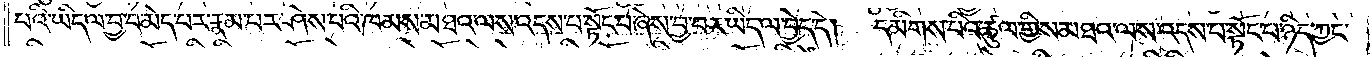པའི་ཡིད་ལ་བྱ་བ་མེད་པར་རྣམ་པར་ཤེས་པའི་ཁམས་མཐའ་ལས་འདས་པ་སྟོང་པ་ཞེས་བྱ་བར་ཡིད་ལ་བྱེད་དེ། དམིགས་པའི་ཚུལ་གྱིས་མཐའ་ལས་འདས་པ་སྟོང་པ་ཉིད་ཀྱང་
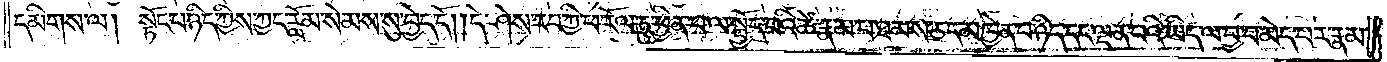དམིགས་ལ། སྟོང་པ་ཉིད་ཀྱིས་ཀྱང་རློམ་སེམས་སུ་བྱེད་དོ། །དེ་ཤེས་རབ་ཀྱི་ཕ་རོལ་ཏུ་ཕྱིན་པ་ལ་སྤྱོད་པའི་ཚེ་རྣམ་པ་ཐམས་ཅད་མཁྱེན་པ་ཉིད་དང་ལྡན་པའི་ཡིད་ལ་བྱ་བ་མེད་པར་རྣམ་
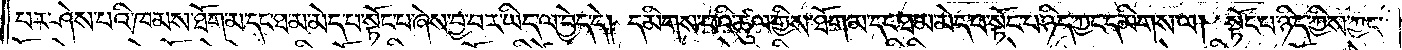པར་ཤེས་པའི་ཁམས་ཐོག་མ་དང་ཐ་མ་མེད་པ་སྟོང་པ་ཞེས་བྱ་བར་ཡིད་ལ་བྱེད་དེ། དམིགས་པའི་ཚུལ་གྱིས་ཐོག་མ་དང་ཐ་མ་མེད་པ་སྟོང་པ་ཉིད་ཀྱང་དམིགས་ལ། སྟོང་པ་ཉིད་ཀྱིས་ཀྱང་
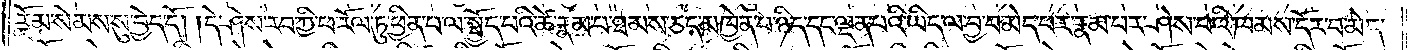རློམ་སེམས་སུ་བྱེད་དོ། །དེ་ཤེས་རབ་ཀྱི་ཕ་རོལ་ཏུ་ཕྱིན་པ་ལ་སྤྱོད་པའི་ཚེ་རྣམ་པ་ཐམས་ཅད་མཁྱེན་པ་ཉིད་དང་ལྡན་པའི་ཡིད་ལ་བྱ་བ་མེད་པར་རྣམ་པར་ཤེས་པའི་ཁམས་དོར་བ་མེད་
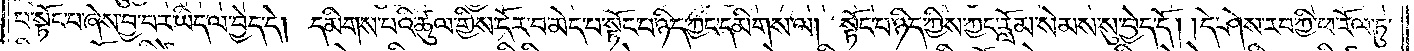པ་སྟོང་པ་ཞེས་བྱ་བར་ཡིད་ལ་བྱེད་དེ། དམིགས་པའི་ཚུལ་གྱིས་དོར་བ་མེད་པ་སྟོང་པ་ཉིད་ཀྱང་དམིགས་ལ། སྟོང་པ་ཉིད་ཀྱིས་ཀྱང་རློམ་སེམས་སུ་བྱེད་དོ། །དེ་ཤེས་རབ་ཀྱི་ཕ་རོལ་ཏུ་
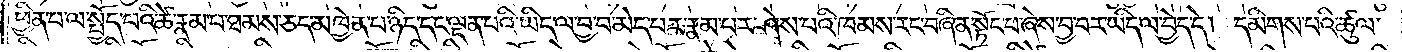ཕྱིན་པ་ལ་སྤྱོད་པའི་ཚེ་རྣམ་པ་ཐམས་ཅད་མཁྱེན་པ་ཉིད་དང་ལྡན་པའི་ཡིད་ལ་བྱ་བ་མེད་པར་རྣམ་པར་ཤེས་པའི་ཁམས་རང་བཞིན་སྟོང་པ་ཞེས་བྱ་བར་ཡིད་ལ་བྱེད་དེ། དམིགས་པའི་ཚུལ་
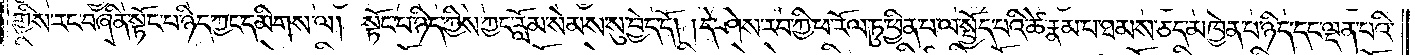གྱིས་རང་བཞིན་སྟོང་པ་ཉིད་ཀྱང་དམིགས་ལ། སྟོང་པ་ཉིད་ཀྱིས་ཀྱང་རློམ་སེམས་སུ་བྱེད་དོ། །དེ་ཤེས་རབ་ཀྱི་ཕ་རོལ་ཏུ་ཕྱིན་པ་ལ་སྤྱོད་པའི་ཚེ་རྣམ་པ་ཐམས་ཅད་མཁྱེན་པ་ཉིད་དང་ལྡན་པའི་
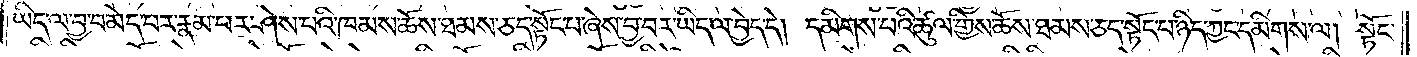ཡིད་ལ་བྱ་བ་མེད་པར་རྣམ་པར་ཤེས་པའི་ཁམས་ཆོས་ཐམས་ཅད་སྟོང་པ་ཞེས་བྱ་བར་ཡིད་ལ་བྱེད་དེ། དམིགས་པའི་ཚུལ་གྱིས་ཆོས་ཐམས་ཅད་སྟོང་པ་ཉིད་ཀྱང་དམིགས་ལ། སྟོང་
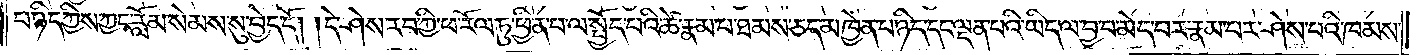པ་ཉིད་ཀྱིས་ཀྱང་རློམ་སེམས་སུ་བྱེད་དོ། །དེ་ཤེས་རབ་ཀྱི་ཕ་རོལ་ཏུ་ཕྱིན་པ་ལ་སྤྱོད་པའི་ཚེ་རྣམ་པ་ཐམས་ཅད་མཁྱེན་པ་ཉིད་དང་ལྡན་པའི་ཡིད་ལ་བྱ་བ་མེད་པར་རྣམ་པར་ཤེས་པའི་ཁམས་
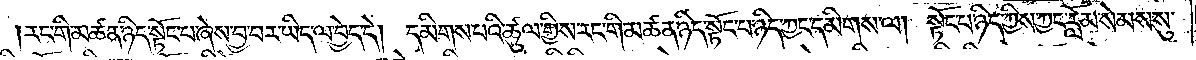རང་གི་མཚན་ཉིད་སྟོང་པ་ཞེས་བྱ་བར་ཡིད་ལ་བྱེད་དེ། དམིགས་པའི་ཚུལ་གྱིས་རང་གི་མཚན་ཉིད་སྟོང་པ་ཉིད་ཀྱང་དམིགས་ལ། སྟོང་པ་ཉིད་ཀྱིས་ཀྱང་རློམ་སེམས་སུ་
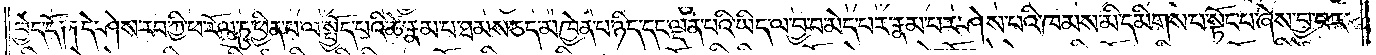བྱེད་དོ༑ ༑དེ་ཤེས་རབ་ཀྱི་ཕ་རོལ་ཏུ་ཕྱིན་པ་ལ་སྤྱོད་པའི་ཚེ་རྣམ་པ་ཐམས་ཅད་མཁྱེན་པ་ཉིད་དང་ལྡན་པའི་ཡིད་ལ་བྱ་བ་མེད་པར་རྣམ་པར་ཤེས་པའི་ཁམས་མི་དམིགས་པ་སྟོང་པ་ཞེས་བྱ་བར་
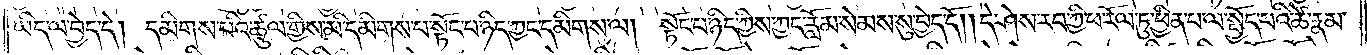ཡིད་ལ་བྱེད་དེ། དམིགས་པའི་ཚུལ་གྱིས་མི་དམིགས་པ་སྟོང་པ་ཉིད་ཀྱང་དམིགས་ལ། སྟོང་པ་ཉིད་ཀྱིས་ཀྱང་རློམ་སེམས་སུ་བྱེད་དོ། །དེ་ཤེས་རབ་ཀྱི་ཕ་རོལ་ཏུ་ཕྱིན་པ་ལ་སྤྱོད་པའི་ཚེ་རྣམ་
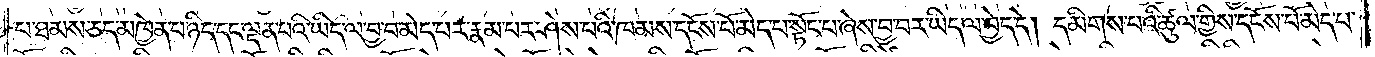པ་ཐམས་ཅད་མཁྱེན་པ་ཉིད་དང་ལྡན་པའི་ཡིད་ལ་བྱ་བ་མེད་པར་རྣམ་པར་ཤེས་པའི་ཁམས་དངོས་པོ་མེད་པ་སྟོང་པ་ཞེས་བྱ་བར་ཡིད་ལ་བྱེད་དེ། དམིགས་པའི་ཚུལ་གྱིས་དངོས་པོ་མེད་པ་
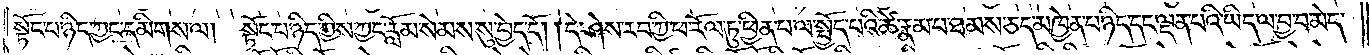སྟོང་པ་ཉིད་ཀྱང་དམིགས་ལ། སྟོང་པ་ཉིད་ཀྱིས་ཀྱང་རློམ་སེམས་སུ་བྱེད་དོ། །དེ་ཤེས་རབ་ཀྱི་ཕ་རོལ་ཏུ་ཕྱིན་པ་ལ་སྤྱོད་པའི་ཚེ་རྣམ་པ་ཐམས་ཅད་མཁྱེན་པ་ཉིད་དང་ལྡན་པའི་ཡིད་ལ་བྱ་བ་མེད་
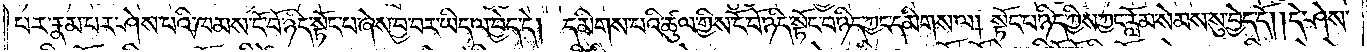པར་རྣམ་པར་ཤེས་པའི་ཁམས་ངོ་བོ་ཉིད་སྟོང་པ་ཞེས་བྱ་བར་ཡིད་ལ་བྱེད་དེ། དམིགས་པའི་ཚུལ་གྱིས་ངོ་བོ་ཉིད་སྟོང་པ་ཉིད་ཀྱང་དམིགས་ལ། སྟོང་པ་ཉིད་ཀྱིས་ཀྱང་རློམ་སེམས་སུ་བྱེད་དོ། །དེ་ཤེས་
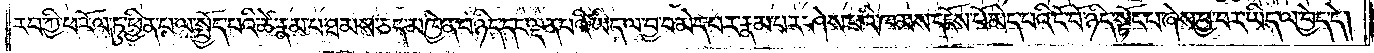རབ་ཀྱི་ཕ་རོལ་ཏུ་ཕྱིན་པ་ལ་སྤྱོད་པའི་ཚེ་རྣམ་པ་ཐམས་ཅད་མཁྱེན་པ་ཉིད་དང་ལྡན་པའི་ཡིད་ལ་བྱ་བ་མེད་པར་རྣམ་པར་ཤེས་པའི་ཁམས་དངོས་པོ་མེད་པའི་ངོ་བོ་ཉིད་སྟོང་པ་ཞེས་བྱ་བར་ཡིད་ལ་བྱེད་དེ།
